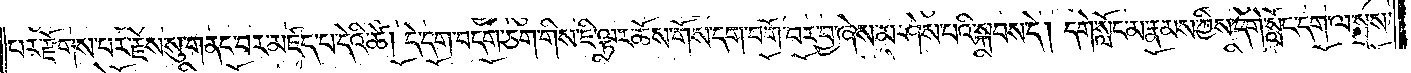པར་རྫོགས་པར་རྗེས་སུ་གནང་བར་མཛད་པ་དེའི་ཚེ། དེ་དག་བདག་ཅག་གིས་ཇི་ལྟར་ཆོས་གོས་དག་བགོ་བར་བྱ་ཞེས་མ་ཤེས་པའི་སྐབས་དེ། དགེ་སློང་མ་རྣམས་ཀྱིས་དགེ་སློང་དག་ལ་སྨྲས་
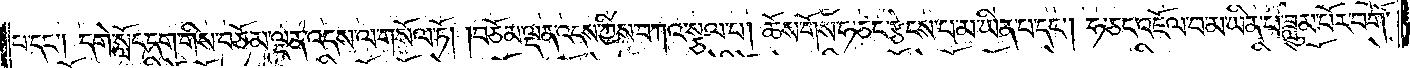པ་དང༌། དགེ་སློང་དག་གིས་བཅོམ་ལྡན་འདས་ལ་གསོལ་ཏོ། །བཅོམ་ལྡན་འདས་ཀྱིས་བཀའ་སྩལ་པ། ཆོས་གོས་ཧ་ཅང་རྩེངས་པ་མ་ཡིན་པ་དང༌། ཧ་ཅང་འཇོལ་བ་མ་ཡིན་པ་ཟླུམ་པོར་བགོ་
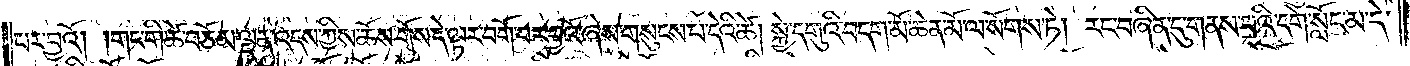པར་བྱའོ། །གང་གི་ཚེ་བཅོམ་ལྡན་འདས་ཀྱིས་ཆོས་གོས་དེ་ལྟར་བགོ་བར་བྱའོ་ཞེས་གསུངས་པ་དེའི་ཚེ། སྐྱེ་དགུའི་བདག་མོ་ཆེན་མོ་ལ་སོགས་ཏེ། རང་བཞིན་དུ་གནས་པའི་དགེ་སློང་མ་དེ་
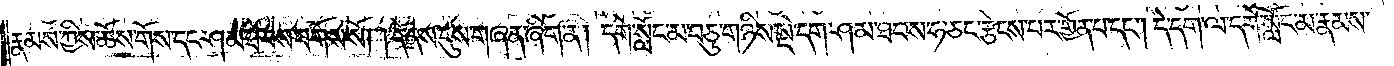རྣམས་ཀྱིས་ཆོས་གོས་དང་ཤམ་ཐབས་བགོས་སོ། །དེ་ནས་དུས་གཞན་ཞིག་ན། དགེ་སློང་མ་བཅུ་གཉིས་སྡེ་དག་ཤམ་ཐབས་ཧ་ཅང་རྩེངས་པར་གྱོན་པ་དང༌། དེ་དག་ལ་དགེ་སློང་མ་རྣམས་
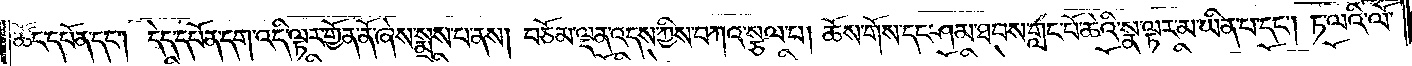ཚོང་དཔོན་དང༌། དེད་དཔོན་དག་འདི་ལྟར་གྱོན་ནོ་ཞེས་སྨྲས་པ་ནས། བཅོམ་ལྡན་འདས་ཀྱིས་བཀའ་སྩལ་པ། ཆོས་གོས་དང་ཤམ་ཐབས་གླང་པོ་ཆེའི་སྣ་ལྟར་མ་ཡིན་པ་དང༌། ཏ་ལའི་ལོ་
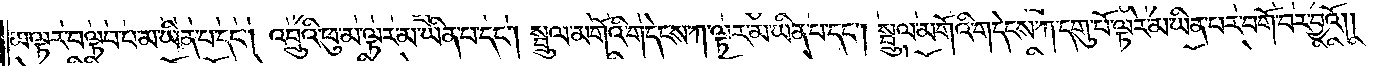མ་ལྟར་བལྟབ་པ་མ་ཡིན་པ་དང༌། འབྲུའི་ཕུ་མ་ལྟར་མ་ཡིན་པ་དང༌། སྦྲུལ་མགོའི་གདེངས་ཀ་ལྟར་མ་ཡིན་པ་དང༌། སྦྲུལ་མགོའི་གདེངས་ཀ་དགུ་པོ་ལྟར་མ་ཡིན་པར་བགོ་བར་བྱའོ༎
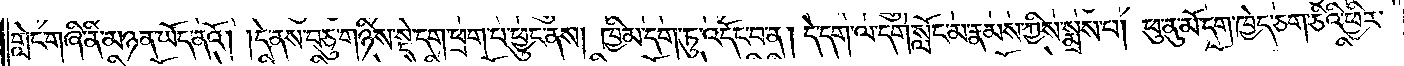གླེང་གཞི་ནི་མཉན་ཡོད་ནའོ། །དེ་ནས་བཅུ་གཉིས་སྡེ་དག་ཕྲག་པ་ཕྱུང་ནས། ཁྱིམ་དག་ཏུ་འདོང་བ་ན། དེ་དག་ལ་དགེ་སློང་མ་རྣམས་ཀྱིས་སྨྲས་པ། ཕུ་ནུ་མོ་དག་ཁྱེད་ཅག་ཅིའི་ཕྱིར་
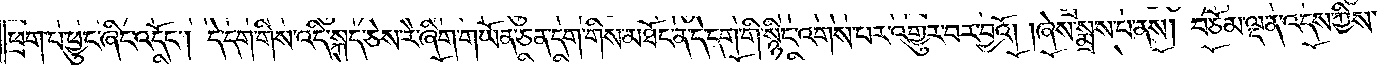ཕྲག་པ་ཕྱུང་ཞིང་འདོང༌། དེ་དག་གིས་འདི་སྐད་ཅེས་རེ་ཞིག་གཡོན་ཅན་དག་གིས་མཐོང་ན་དེ་དག་གི་སྙིང་འགས་པར་འགྱུར་བར་བྱའོ། །ཞེས་སྨྲས་པ་ནས། བཅོམ་ལྡན་འདས་ཀྱིས་
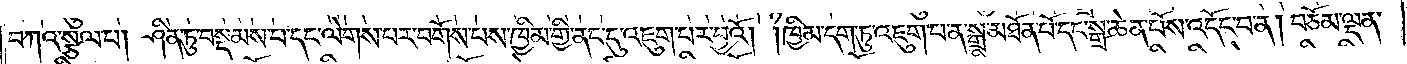བཀའ་སྩལ་པ། ཤིན་ཏུ་བསྡམས་པ་དང་ལེགས་པར་བགོས་པས་ཁྱིམ་གྱི་ནང་དུ་འཇུག་པར་བྱའོ། །ཁྱིམ་དག་ཏུ་འཇུག་པ་ན་སྒྲ་མཐོན་པོ་དང་སྒྲ་ཆེན་པོས་འདོང་བ་ན། བཅོམ་ལྡན་
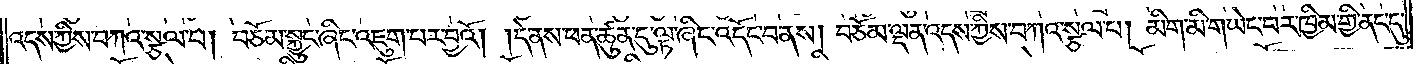འདས་ཀྱིས་བཀའ་སྩལ་པ། བཅོམ་སྐྱུང་ཞིང་འཇུག་པར་བྱའོ། །དེ་ནས་ཕན་ཚུན་དུ་ལྟ་ཞིང་འདོང་བ་ནས། བཅོམ་ལྡན་འདས་ཀྱིས་བཀའ་སྩལ་པ། མིག་མི་གཡེང་བར་ཁྱིམ་གྱི་ནང་དུ་
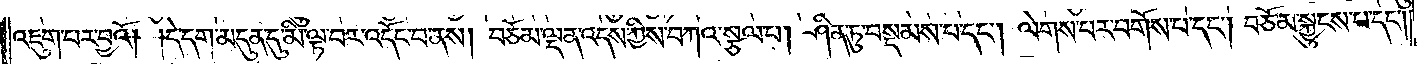འཇུག་པར་བྱའོ། །དེ་དག་མདུན་དུ་མི་ལྟ་བར་འདོང་བ་ནས། བཅོམ་ལྡན་འདས་ཀྱིས་བཀའ་སྩལ་པ། ཤིན་ཏུ་བསྡམས་པ་དང༌། ལེགས་པར་བགོས་པ་དང༌། བཅོམ་སྐྱུངས་པ་དང༌།
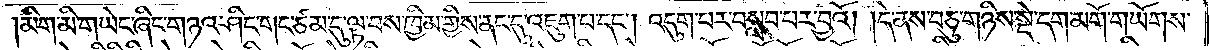མིག་མི་གཡེང་ཞིང་གཉའ་ཤིང་གང་ཙམ་དུ་ལྟ་བས་ཁྱིམ་གྱིས་ནང་དུ་འཇུག་པ་དང༌། འདུག་པར་བསླབ་པར་བྱའོ། །དེ་ནས་བཅུ་གཉིས་སྡེ་དག་མགོ་གཡོགས་
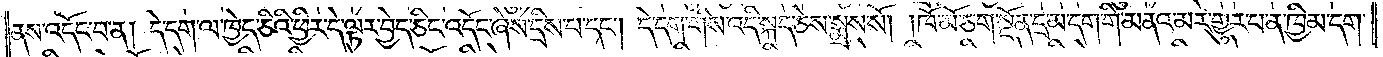ནས་འདོང་བ་ན། དེ་དག་ལ་ཁྱེད་ཅིའི་ཕྱིར་དེ་ལྟར་བྱེད་ཅིང་འདོང་ཞེས་དྲིས་པ་དང༌། དེ་དག་གིས་འདི་སྐད་ཅེས་སྨྲས་སོ། །ཁོ་མོ་ཅག་སྔོན་དྲ་མ་དག་གི་མནའ་མར་གྱུར་པ་ན་ཁྱིམ་དག་
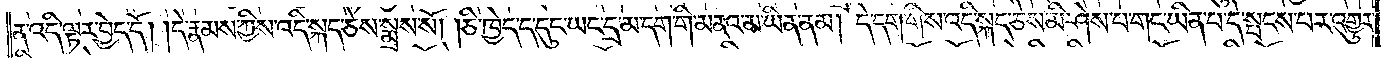ན་འདི་ལྟར་བྱེད་དོ། །དེ་རྣམས་ཀྱིས་འདི་སྐད་ཅེས་སྨྲས་སོ། །ཅི་ཁྱེད་ད་དུང་ཡང་དྲ་མ་དག་གི་མནའ་མ་ཡིན་ནམ། དེ་དག་གིས་འདི་སྐད་ཅེས་མི་ཤེས་པ་གང་ཡིན་པ་དེ་སྤངས་པར་འགྱུར་
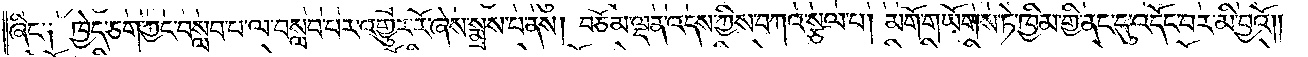ཞིང་༑ ཁྱེད་ཅག་ཀྱང་བསླབ་པ་ལ་བསླབ་པར་འགྱུར་རོ་ཞེས་སྨྲས་པ་ནས། བཅོམ་ལྡན་འདས་ཀྱིས་བཀའ་སྩལ་པ། མགོ་གཡོགས་ཏེ་ཁྱིམ་གྱི་ནང་དུ་འདོང་བར་མི་བྱའོ༎
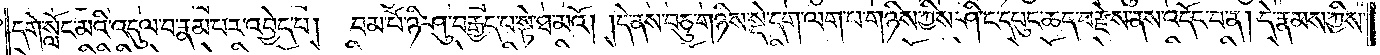དགེ་སློང་མའི་འདུལ་བ་རྣམ་པར་འབྱེད་པ། བམ་པོ་ཉི་ཤུ་བརྒྱད་པ་སྟེ་ཐ་མའོ། །དེ་ནས་བཅུ་གཉིས་སྡེ་དག་ལག་པ་གཉིས་ཀྱིས་ཤིང་དཔུང་ཆད་བརྫེས་ནས་འདོང་བ་ན། དེ་རྣམས་ཀྱིས་
